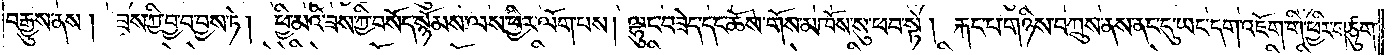བརྒྱུས་ནས། ཟས་ཀྱི་བྱ་བ་བྱས་ཏེ། ཕྱི་མའི་ཟས་ཀྱི་བསོད་སྙོམས་ལས་ཕྱིར་ལོག་པས། ལྷུང་བཟེད་དང་ཆོས་གོས་མཁོས་སུ་ཕབ་སྟེ། རྐང་པ་གཉིས་བཀྲུས་ནས་ནང་དུ་ཡང་དག་འཇོག་གི་ཕྱིར་གཙུག་
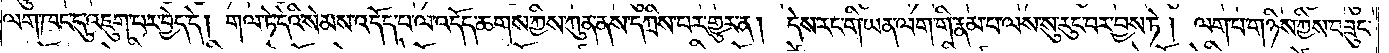ལག་ཁང་དུ་འཇུག་པར་བྱེད་དེ། གལ་ཏེ་དེའི་སེམས་འདོད་པ་ལ་འདོད་ཆགས་ཀྱིས་ཀུན་ནས་དཀྲིས་པར་གྱུར་ན། དེས་རང་གི་ཡན་ལག་གི་རྣམ་པ་ལས་སུ་རུང་བར་བྱས་ཏེ། ལག་པ་གཉིས་ཀྱིས་བཟུང་
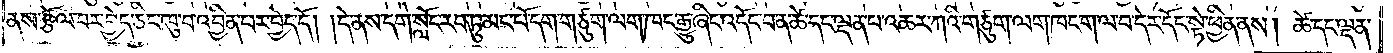ནས་རྩོལ་བར་བྱེད་ཅིང་ཁུ་བ་འབྱིན་པར་བྱེད་དོ། །དེ་ནས་དགེ་སློང་རབ་ཏུ་མང་པོ་དག་གཙུག་ལག་ཁང་རྒྱུ་ཞིང་འདོང་བ་ན་ཚེ་དང་ལྡན་པ་འཆར་ཀའི་གཙུག་ལག་ཁང་ག་ལ་བ་དེར་དོང་སྟེ་ཕྱིན་ནས། ཚེ་དང་ལྡན་
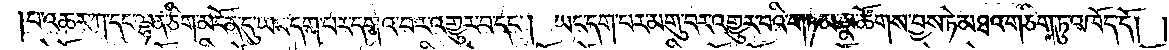པ་འཆར་ཀ་དང་ལྷན་ཅིག་མངོན་དུ་ཡང་དག་པར་དགའ་བར་འགྱུར་བ་དང༌། ཡང་དག་པར་མགུ་བར་འགྱུར་བའི་གཏམ་སྣ་ཚོགས་བྱས་ཏེ་མཐའ་གཅིག་ཏུ་འཁོད་དོ། །
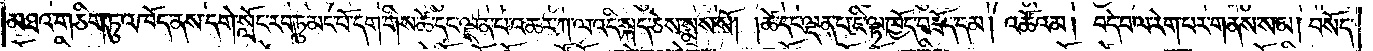མཐའ་གཅིག་ཏུ་འཁོད་ནས་དགེ་སློང་རབ་ཏུ་མང་པོ་དག་གིས་ཚེ་དང་ལྡན་པ་འཆར་ཀ་ལ་འདི་སྐད་ཅེས་སྨྲས་སོ། །ཚེ་དང་ལྡན་པ་ཇི་ལྟ་ཁྱོད་བཟོད་དམ། འཚོའམ། བདེ་བ་ལ་རེག་པར་གནས་སམ། བསོད་
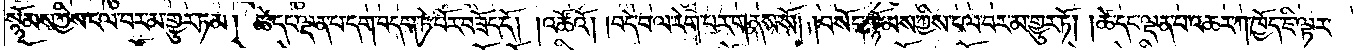སྙོམས་ཀྱིས་ངལ་བར་མ་གྱུར་ཏམ། ཚེ་དང་ལྡན་པ་དག་བདག་ཏེ་པོར་བཟོད་དོ། །འཚོའོ། །བདེ་བ་ལ་རེག་པར་གནས་སོ། །བསོད་སྙོམས་ཀྱིས་ངལ་བར་མ་གྱུར་ཏོ། །ཚེ་དང་ལྡན་པ་འཆར་ཀ་ཁྱོད་ཇི་ལྟར་
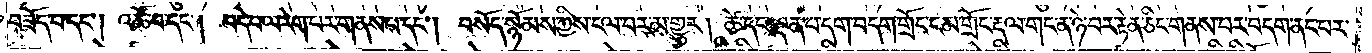བཟོད་པ་དང༌། འཚོ་བ་དང༌། བདེ་བ་ལ་རེག་པར་གནས་པ་དང༌། བསོད་སྙོམས་ཀྱིས་ངལ་བར་མ་གྱུར། ཚེ་དང་ལྡན་པ་དག་བདག་གྲོང་ངམ་གྲོང་རྡལ་གང་ན་ཉེ་བར་རྟེན་ཅིང་གནས་པར་བདག་ནང་པར་
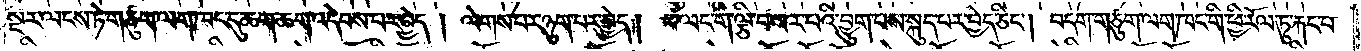སྔར་ལངས་ཏེ་གཙུག་ལག་ཁང་དུ་ཆག་ཆག་འདེབས་པར་བྱེད། ལེགས་པར་ཉུག་པར་བྱེད། བ་ལང་གི་ལྕི་བ་སར་པའི་བྱུག་པས་སྐུད་པར་བྱེད་ཅིང༌། བདག་གཙུག་ལག་ཁང་གི་ཕྱི་རོལ་ཏུ་རྐང་པ་
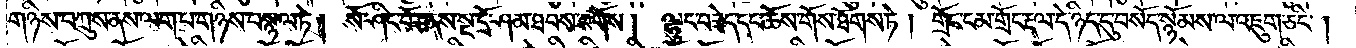གཉིས་བཀྲུས་ནས་ལག་པ་གཉིས་བསྙལ་ཏེ། སོ་ཤིང་བོར་ནས་སྔ་དྲོ་ཤམ་ཐབས་བགོས།   ལྷུང་བཟེད་དང་ཆོས་གོས་ཐོགས་ཏེ། གྲོང་ངལ་གྲོང་རྡལ་དེ་ཉིད་དུ་བསོད་སྙོམས་ལ་འཇུག་ཅིང༌།
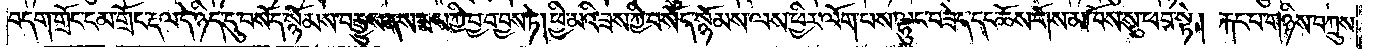བདག་གྲོང་ངམ་གྲོང་རྡལ་དེ་ཉིད་དུ་བསོད་སྙོམས་བརྒྱུས་ནས་ཟས་ཀྱི་བྱ་བ་བྱས་ཏེ། ཕྱི་མའི་ཟས་ཀྱི་བསོད་སྙོམས་ལས་ཕྱིར་ལོག་པས་ལྷུང་བཟེད་དང་ཆོས་གོས་མཁོས་སུ་ཕབ་སྟེ། རྐང་པ་གཉིས་བཀྲུས་
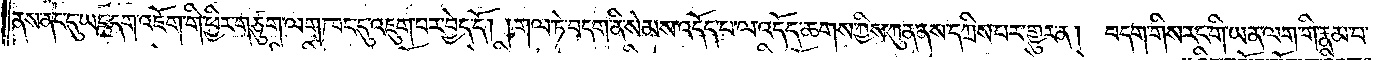ནས་ནང་དུ་ཡང་དག་འཇོག་གི་ཕྱིར་གཙུག་ལག་ཁང་དུ་འཇུག་པར་བྱེད་དོ། །གལ་ཏེ་བདག་ནི་སེམས་འདོད་པ་ལ་འདོད་ཆགས་ཀྱིས་ཀུན་ནས་དཀྲིས་པར་གྱུར་ན། བདག་གིས་རང་གི་ཡན་ལག་གི་རྣམ་པ་
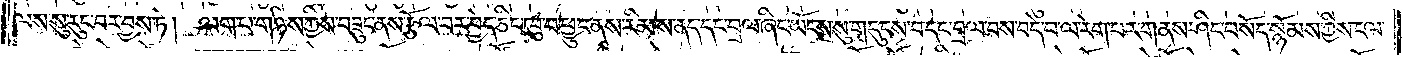ལས་སུ་རུང་བར་བྱས་ཏེ། ལག་པ་གཉིས་ཀྱིས་བཟུང་ནས་རྩོལ་བར་བྱེད་ཅིང་ཁུ་བ་ཕྱུང་ནས་རིམས་ནད་དང་བྲལ་ཞིང་ཡོངས་སུ་གདུངས་པ་དང་བྲལ་བས་བདེ་བ་ལ་རེག་པར་གནས་ཤིང་བསོད་སྙོམས་ཀྱིས་ངལ་
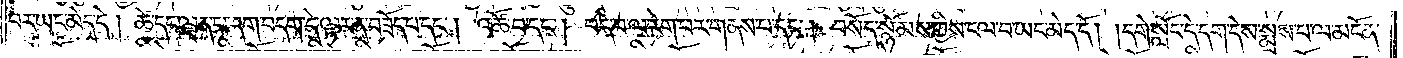བར་ཡང་མེད་དེ། ཚེ་དང་ལྡན་པ་དག་བདག་དེ་ལྟར་ན་བཟོད་པ་དང༌། འཚོ་བ་དང༌། བདེ་བ་ལ་རེག་པར་གནས་པ་དང༌། བསོད་སྙོམས་ཀྱིས་ངལ་བ་ཡང་མེད་དོ། །དགེ་སློང་དེ་དག་དེས་སྨྲས་པ་ལ་མངོན་
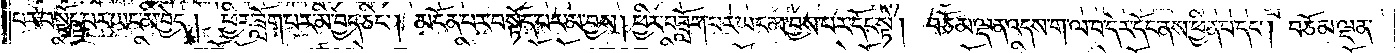པར་བསྟོད་པར་ཡང་མི་བྱེད། ཕྱིར་ཟློག་པར་མི་བྱེད་ཅིང༌། མངོན་པར་བསྟོད་པར་མ་བྱས། ཕྱིར་བཟློག་པར་ཡང་མ་བྱས་པར་དོང་སྟེ། བཅོམ་ལྡན་འདས་ག་ལ་བ་དེར་དོང་ནས་ཕྱིན་པ་དང༌། བཅོམ་ལྡན་
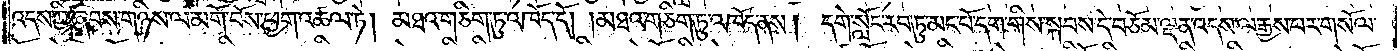འདས་ཀྱི་ཞབས་གཉིས་ལ་མགོ་བོས་ཕྱག་འཚལ་ཏེ། མཐའ་གཅིག་ཏུ་འཁོད་དོ། །མཐའ་གཅིག་ཏུ་འཁོད་ནས། དགེ་སློང་རབ་ཏུ་མང་པོ་དག་གིས་སྐབས་དེ་བཅོམ་ལྡན་འདས་ལ་རྒྱས་པར་གསོལ་
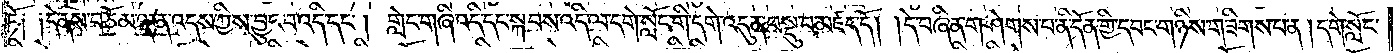ཏོ༑ ༑དེ་ནས་བཅོམ་ལྡན་འདས་ཀྱིས་བྱུང་བ་འདི་དང༌། གླེང་གཞི་འདི་དང་སྐབས་འདི་ལ་དགེ་སློང་གི་དགེ་འདུན་བསྡུ་བ་མཛད་དོ། །དེ་བཞིན་གཤེགས་པ་ནི་དོན་གྱི་དབང་གཉིས་གཟིགས་པ་ན། དགེ་སློང་
